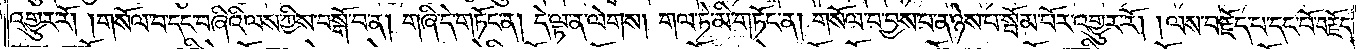འགྱུར་རོ། །གསོལ་བ་དང་བཞིའི་ལས་ཀྱིས་བསྒོ་བ་ན། གཞི་དེ་གཏོང་ན། དེ་ལྟ་ན་ལེགས། གལ་ཏེ་མི་གཏོང་ན། གསོལ་བ་བྱས་པ་ན་ཉེས་པ་སྦོམ་པོར་འགྱུར་རོ། །ལས་བརྗོད་པ་དང་པོ་བརྗོད་
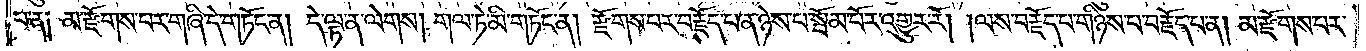པ་ན༏ མ་རྫོགས་པར་གཞི་དེ་གཏོང་ན། དེ་ལྟ་ན་ལེགས། གལ་ཏེ་མི་གཏོང་ན། རྫོགས་པར་བརྗོད་པ་ན་ཉེས་པ་སྦོམ་པོར་འགྱུར་རོ། །ལས་བརྗོད་པ་གཉིས་པ་བརྗོད་པ་ན། མ་རྫོགས་པར་
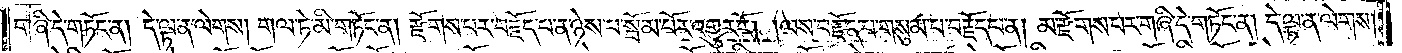གཞི་དེ་གཏོང་ན། དེ་ལྟ་ན་ལེགས། གལ་ཏེ་མི་གཏོང་ན། རྫོགས་པར་བརྗོད་པ་ན་ཉེས་པ་སྦོམ་པོར་འགྱུར་རོ། །ལས་བརྗོད་པ་གསུམ་པ་བརྗོད་པ་ན། མ་རྫོགས་པར་གཞི་དེ་གཏོང་ན། དེ་ལྟ་ན་ལེགས།
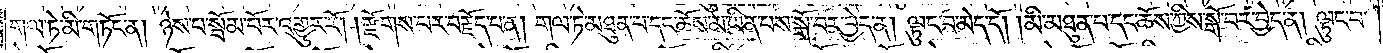གལ་ཏེ་མི་གཏོང་ན། ཉེས་པ་སྦོམ་པོར་འགྱུར་རོ། །རྫོགས་པར་བརྗོད་པ་ན། གལ་ཏེ་མཐུན་པ་དང་ཆོས་མ་ཡིན་པས་སྒོ་བར་བྱེད་ན། ལྟུང་བ་མེད་དོ། །མི་མཐུན་པ་དང་ཆོས་ཀྱིས་སྒོ་བར་བྱེད་ན། ལྟུང་བ་
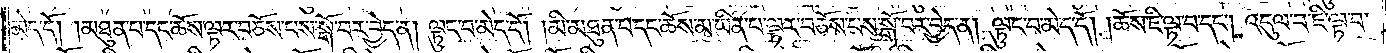མེད་དོ། །མཐུན་པ་དང་ཆོས་ལྟར་བཅོས་པས་སྒོ་བར་བྱེད་ན། ལྟུང་བ་མེད་དོ། །མི་མཐུན་པ་དང་ཆོས་མ་ཡིན་པ་ལྟར་བཅོས་པས་སྒོ་བར་བྱེད་ན། ལྟུང་བ་མེད་དོ། །ཆོས་ཇི་ལྟ་བ་དང༌། འདུལ་བ་ཇི་ལྟ་བ་
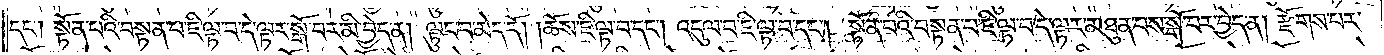དང༌། སྟོན་པའི་བསྟན་པ་ཇི་ལྟ་བ་དེ་ལྟར་སྒོ་བར་མི་བྱེད་ན། ལྟུང་བ་མེད་དོ། །ཆོས་ཇི་ལྟ་བ་དང༌། འདུལ་བ་ཇི་ལྟ་བ་དང༌། སྟོན་པའི་བསྟན་པ་ཇི་ལྟ་བ་དེ་ལྟར་མཐུན་པས་སྒོ་བར་བྱེད་ན། རྫོགས་པར་
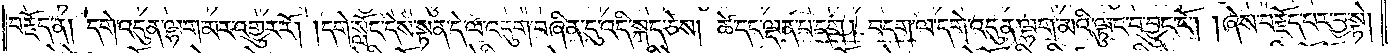བརྗོད་ན། དགེ་འདུན་ལྷག་མར་འགྱུར་རོ། །དགེ་སློང་དེས་སྟན་དེ་ལ་འདུག་བཞིན་དུ་འདི་སྐད་ཅེས། ཚེ་དང་ལྡན་པ་དག ། བདག་ལ་དགེ་འདུན་ལྷག་མའི་ལྟུང་བ་བྱུང་ངོ༌། །ཞེས་བརྗོད་པར་བྱ་སྟེ།
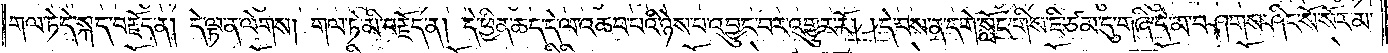གལ་ཏེ་དེ་སྐད་བརྗོད་ན། དེ་ལྟ་ན་ལེགས། གལ་ཏེ་མི་བརྗོད་ན། དེ་ཕྱིན་ཆད་དེ་ལ་འཆབ་པའི་ཉེས་པ་འབྱུང་བར་འགྱུར་རོ། །དེ་བས་ན་དགེ་སློང་གིས་ཇི་ཙམ་དུ་གཞི་དེ་མ་བཤགས་ཤིང་སོ་སོར་མ་
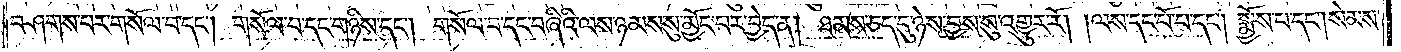བཤགས་པར་གསོལ་བ་དང༌། གསོལ་བ་དང་གཉིས་དང༌། གསོལ་བ་དང་བཞིའི་ལས་ཉམས་སུ་མྱོང་བར་བྱེད་ན། ཐམས་ཅད་དུ་ཉེས་བྱས་སུ་འགྱུར་རོ། །ལས་དང་པོ་པ་དང༌། སྨྱོས་པ་དང༌། སེམས་
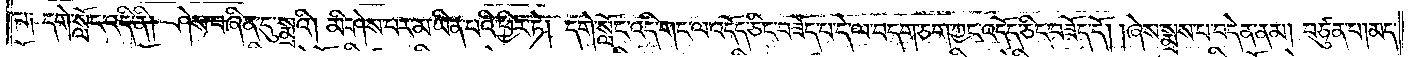པ༑ དགེ་སློང་འདི་ནི། ཤེས་བཞིན་དུ་སྨྲའི། མི་ཤེས་པར་མ་ཡིན་པའི་ཕྱིར་ཏེ། དགེ་སློང་འདི་གང་ལ་འདོད་ཅིང་བཟོད་པ་དེ་ལ་བདག་ཅག་ཀྱང་འདོད་ཅིང་བཟོད་དོ། །ཞེས་སྨྲས་པ་བདེན་ནམ། བཙུན་པ། མད་
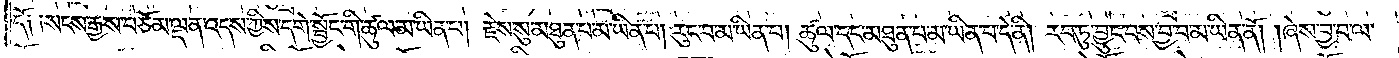དོ༑ ༑སངས་རྒྱས་བཅོམ་ལྡན་འདས་ཀྱིས་དགེ་སྦྱོང་གི་ཚུལ་མ་ཡིན་པ། རྗེས་སུ་མཐུན་པ་མ་ཡིན་པ། རུང་བ་མ་ཡིན་པ། ཚུལ་དང་མཐུན་པ་མ་ཡིན་པ་དེ་ནི། རབ་ཏུ་བྱུང་བས་བྱ་བ་མ་ཡིན་ནོ། །ཞེས་བྱ་བ་ལ་
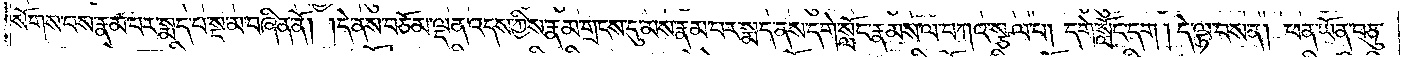སོགས་པས་རྣམ་པར་སྨད་པ་སྔ་མ་བཞིན་ནོ། །དེ་ནས་བཅོམ་ལྡན་འདས་ཀྱིས་རྣམ་གྲངས་དུ་མས་རྣམ་པར་སྨད་ནས་དགེ་སློང་རྣམས་ལ་བཀའ་སྩལ་པ། དགེ་སློང་དག། དེ་ལྟ་བས་ན། ཕན་ཡོན་བཅུ་
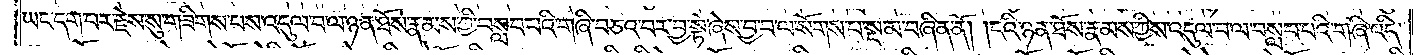ཡང་དག་པར་རྗེས་སུ་གཟིགས་པས་འདུལ་བ་ལ་ཉན་ཐོས་རྣམས་ཀྱི་བསླབ་པའི་གཞི་བཅའ་བར་བྱ་སྟེ་ཞེས་བྱ་བ་ལ་སོགས་པ་སྔ་མ་བཞིན་ནོ། །ངའི་ཉན་ཐོས་རྣམས་ཀྱིས་འདུལ་བ་ལ་བསླབ་པའི་གཞི་འདི་
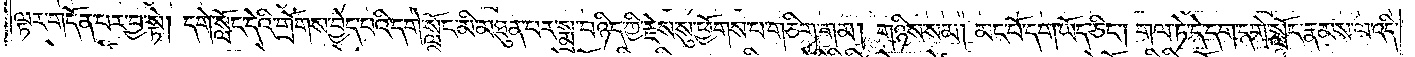ལྟར་གདོན་པར་བྱ་སྟེ། དགེ་སློང་དེའི་གྲོགས་བྱེད་པའི་དགེ་སློང་མི་མཐུན་པར་སྨྲ་བ་ཉིད་ཀྱི་རྗེས་སུ་ཕྱོགས་པ་གཅིག་གམ། གཉིས་སམ། མང་པོ་དག་ཡོད་ཅིང༌། གལ་ཏེ་དེ་དག་དགེ་སློང་རྣམས་ལ་འདི་
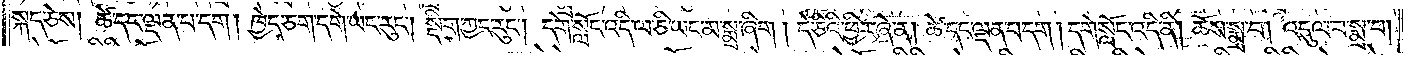སྐད་ཅེས། ཚེ་དང་ལྡན་པ་དག། ཁྱེད་ཅག་དགེ་ཡང་རུང༌། སྡིག་ཀྱང་རུང༌། དགེ་སློང་འདི་ལ་ཅི་ཡང་མ་སྨྲ་ཞིག། དེ་ཅིའི་ཕྱིར་ཞེ་ན། ཚེ་དང་ལྡན་པ་དག། དགེ་སློང་འདི་ནི། ཆོས་སྨྲ་བ། འདུལ་བ་སྨྲ་བ།
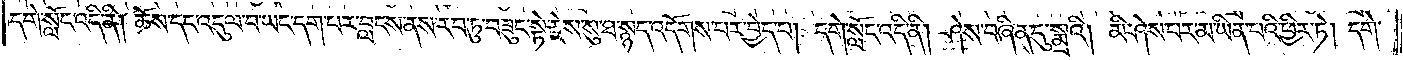དགེ་སློང་འདི་ནི། ཆོས་དང་འདུལ་བ་ཡང་དག་པར་བླངས་ནས་རབ་ཏུ་བཟུང་སྟེ་རྗེས་སུ་ཐ་སྙད་འདོགས་པར་བྱེད་པ། དགེ་སློང་འདི་ནི། ཤེས་བཞིན་དུ་སྨྲའི། མི་ཤེས་པར་མ་ཡིན་པའི་ཕྱིར་ཏེ། དགེ་
